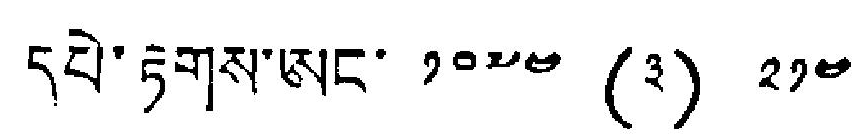དཔེ་རྟགས་ཨང་ ༡༠༧༤ (༣) ༢༡༤
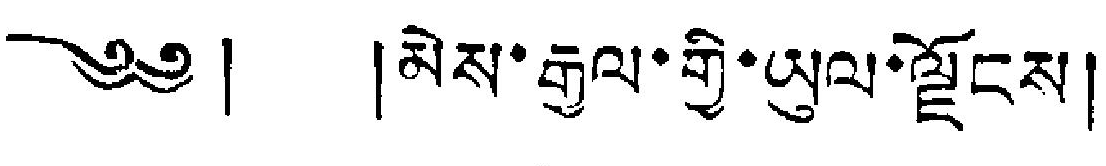༄༅། །མེས་རྒྱལ་གྱི་ཡུལ་ལྗོངས།
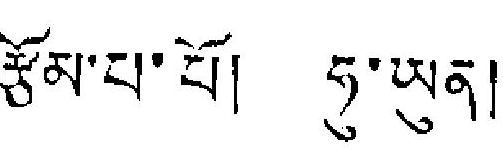རྩོམ་པ་པོ། ཧུ་ཡུན།
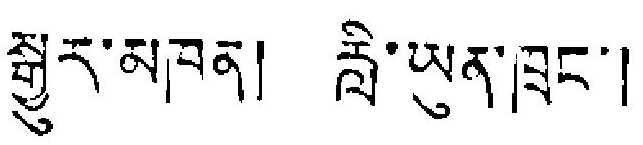སྒྱུར་མཁན། རླི་ཡུན་ཁྲང་།
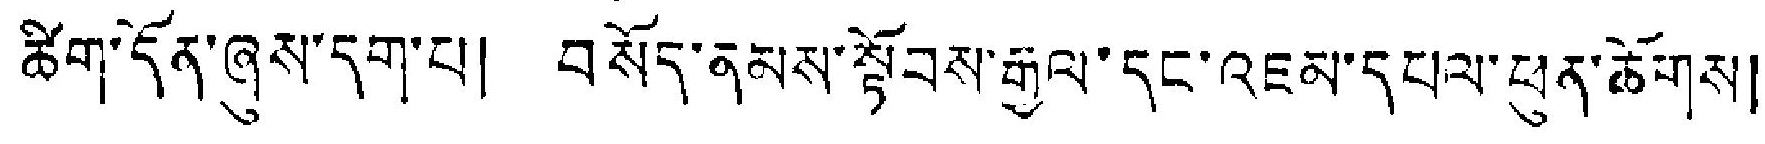ཚིག་དོན་ཞུས་དག་པ། བསོད་ནམས་སྟོབས་རྒྱལ་དང་འཇམ་དཔལ་ཕུན་ཆོགས།
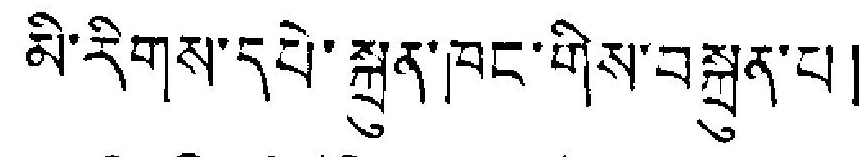མི་རིགས་དཔེ་སྐྲུན་ཁང་གིས་བསྐྲུན་པ།
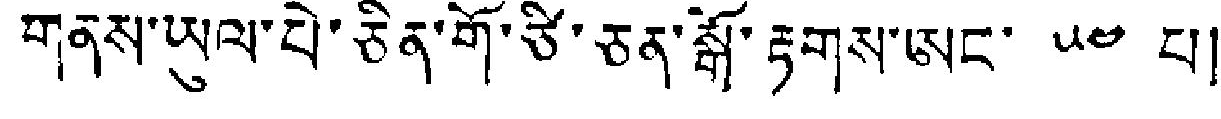གནས་ཡུལ་པེ་ཅིན་གོ་ཙི་ཅན་སྒོ་རྟགས་ཨང་ ༥༤ པ།
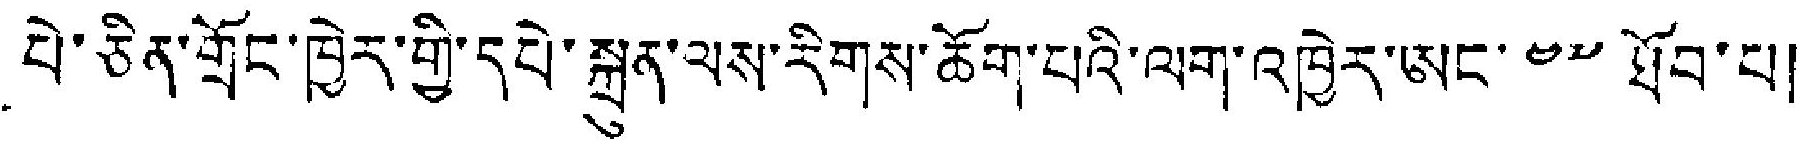པེ་ཅིན་གྲོང་ཁྱེར་གྱི་དཔེ་སྐྲུན་ལས་རིགས་ཆོག་པའི་ལག་འཁྱེར་ཨང་༤༧་ཐོབ་པ།
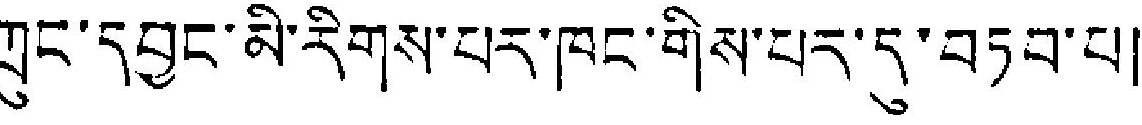ཀྲུང་དབྱང་མི་རིགས་པར་ཁང་གིས་པར་དུ་བཏབ་པ།
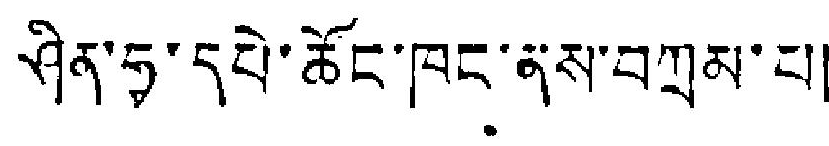ཤིན་ཧྭ་དཔེ་ཚོང་ཁང་ནས་བཀྲམ་པ།
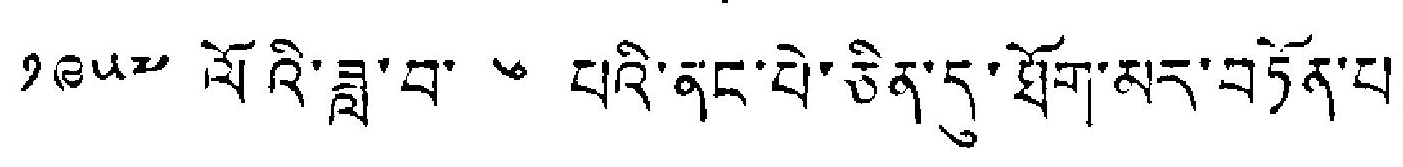༡༩༥༧ ལོའི་ཟླ་བ་ ༦ པའི་ནང་པེ་ཅིན་དུ་ཐོག་མར་བཏོན་པ།
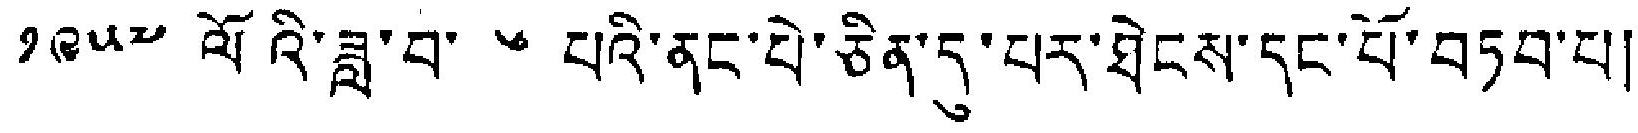༡༩༥༧ ལོའི་ཟླ་བ་ ༦ པའི་ནང་པེ་ཅིན་དུ་པར་ཐེངས་དང་པོ་བཏབ་པ།
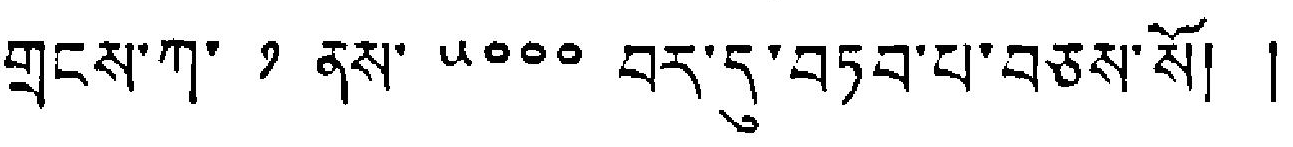གྲངས་ཀ་ ༡ ནས་ ༥༠༠༠ བར་དུ་བཏབ་པ་བཅས་སོ། །
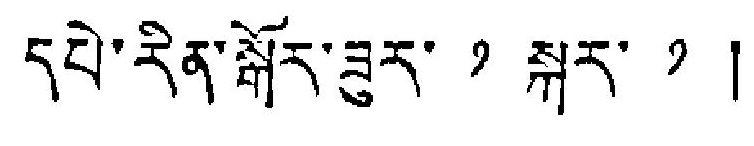དཔེ་རིན་སྒོར་ཟུར་ ༡ སྐར་ ༡ །
